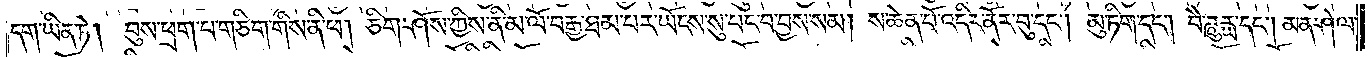དག་ཡིན་ཏེ། བུས་ཕྲག་པ་གཅིག་གིས་ནི་ཕ། ཅིག་ཤོས་ཀྱིས་ནི་མ་ལོ་བརྒྱ་ཐམ་པར་ཡོངས་སུ་པང་བ་བྱས་སམ། ས་ཆེན་པོ་འདིར་ནོར་བུ་དང༌། མུ་ཏིག་དང༌། བཻ་ཌཱུཪྻ་དང༌། མན་ཤེལ་
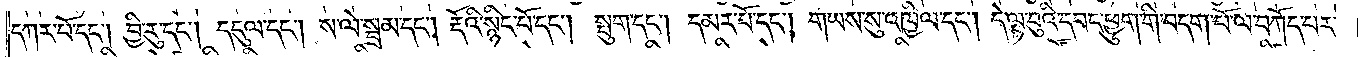དཀར་པོ་དང༌། བྱི་རུ་དང༌། དངུལ་དང༌། ས་ལེ་སྦྲམ་དང༌། རྡོའི་སྙིང་པོ་དང༌། སྤུག་དང༌། དམར་པོ་དང༌། གཡས་སུ་འཁྱིལ་དང༌། དེ་ལྟ་བུའི་དབང་ཕྱུག་གི་བདག་པོ་ལ་བཀོད་པར་
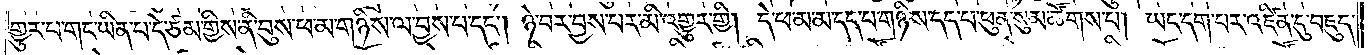གྱུར་པ་གང་ཡིན་པ་དེ་ཙམ་གྱིས་ནི་བུས་ཕ་མ་གཉིས་ལ་བྱས་པ་དང༌། ཉེ་བར་བྱས་པར་མི་འགྱུར་གྱི། དེ་ཕ་མ་མ་དད་པ་གཉིས་དད་པ་ཕུན་སུམ་ཚོགས་པ། ཡང་དག་པར་འཛིན་དུ་བཇུད་
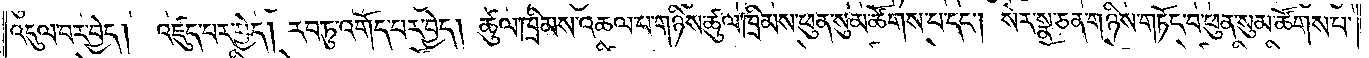འདུལ་བར་བྱེད། འཛུད་པར་བྱེད། རབ་ཏུ་འགོད་པར་བྱེད། ཚུལ་ཁྲིམས་འཆལ་པ་གཉིས་ཚུལ་ཁྲིམས་ཕུན་སུམ་ཚོགས་པ་དང༌། སེར་སྣ་ཅན་གཉིས་གཏོང་བ་ཕུན་སུམ་ཚོགས་པ་
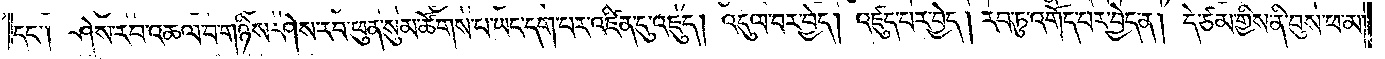དང༌། ཤེས་རབ་འཆལ་བ་གཉིས་ཤེས་རབ་ཕུན་སུམ་ཚོགས་པ་ཡང་དག་པར་འཛིན་དུ་འཇུད། འདུལ་བར་བྱེད། འཛུད་པར་བྱེད། རབ་ཏུ་འགོད་པར་བྱེད་ན། དེ་ཙམ་གྱིས་ནི་བུས་ཕ་མ་
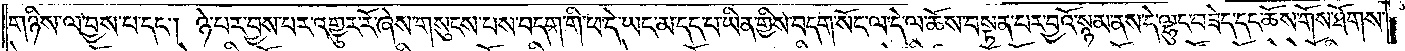གཉིས་ལ་བྱས་པ་དང༌། ཉེ་བར་བྱས་པར་འགྱུར་རོ་ཞེས་གསུངས་པས་བདག་གི་ཕ་དེ་ཡང་མ་དད་པ་ཡིན་གྱིས་བདག་སོང་ལ་དེ་ལ་ཆོས་བསྟན་པར་བྱའོ་སྙམ་ནས་དེ་ལྷུང་བཟེད་དང་ཆོས་གོས་ཐོགས་
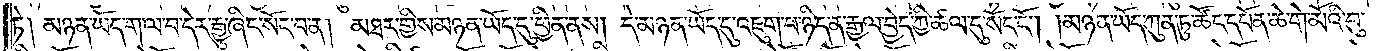ཏེ༑ མཉན་ཡོད་ག་ལ་བ་དེར་རྒྱུ་ཞིང་སོང་བ་ན། མཐར་གྱིས་མཉན་ཡོད་དུ་ཕྱིན་ནས། དེ་མཉན་ཡོད་དུ་འཇུག་པ་ཉིད་ན་རྒྱལ་བྱེད་ཀྱི་ཚལ་དུ་སོང་ངོ༌། །མཉན་ཡོད་ཀུན་ཏུ་ཚོང་དཔོན་ཆེ་གེ་མོའི་བུ་
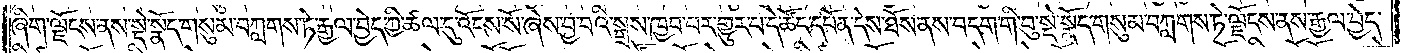ཞིག་ལྗོངས་ནས་སྡེ་སྣོད་གསུམ་བཀླགས་ཏེ་རྒྱལ་བྱེད་ཀྱི་ཚལ་དུ་འོངས་སོ་ཞེས་བྱ་བའི་སྒྲས་ཁྱབ་པར་གྱུར་པ་དེ་ཚོང་དཔོན་དེས་ཐོས་ནས་བདག་གི་བུ་སྡེ་སྣོད་གསུམ་བཀླགས་ཏེ་ལྗོངས་ནས་རྒྱལ་བྱེད་
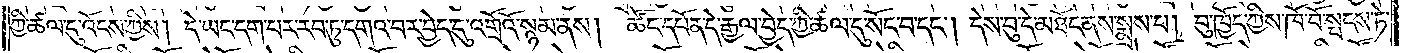ཀྱི་ཚལ་དུ་འོངས་ཀྱིས། དེ་ཡང་དག་པར་རབ་ཏུ་དགའ་བར་བྱེད་དུ་འགྲོའོ་སྙམ་ནས། ཚོང་དཔོན་དེ་རྒྱལ་བྱེད་ཀྱི་ཚལ་དུ་སོང་བ་དང༌། དེས་བུ་དེ་མཐོང་ནས་སྨྲས་པ། བུ་ཁྱོད་ཀྱིས་ཁོ་བོ་སྤངས་ཏེ་
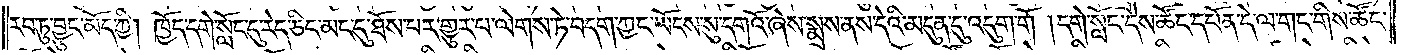རབ་ཏུ་བྱུང་མོད་ཀྱི། ཁྱོད་དགེ་སློང་དུ་རེད་ཅིང་མང་དུ་ཐོས་པར་གྱུར་པ་ལེགས་ཏེ་བདག་ཀྱང་ཡོངས་སུ་དགའོ་ཞེས་སྨྲས་ནས་དེའི་མདུན་དུ་འདུག་གོ །དགེ་སློང་དེས་ཚོང་དཔོན་དེ་ལ་གང་གིས་ཚོང་
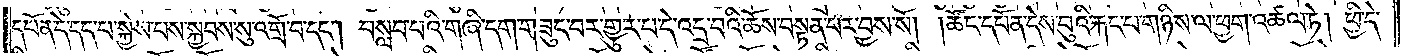དཔོན་དེ་དད་པ་སྐྱེས་པས་སྐྱབས་སུ་འགྲོ་བ་དང༌། བསླབ་པའི་གཞི་དག་གཟུང་བར་གྱུར་པ་དེ་འདྲ་བའི་ཆོས་བསྟན་པར་བྱས་སོ། །ཚོང་དཔོན་དེས་བུའི་རྐང་པ་གཉིས་ལ་ཕྱག་འཚལ་ཏེ། ཕྱི་དེ་
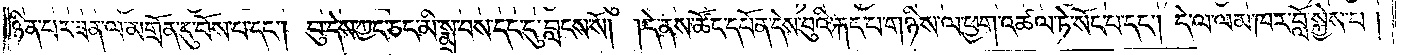ཉིན་པར་ཟན་ལ་མགྲོན་དུ་བོས་པ་དང༌། བུ་དེས་ཀྱང་ཅང་མི་སྨྲ་བས་དང་དུ་བླངས་སོ། །དེ་ནས་ཚོང་དཔོན་དེས་བུའི་རྐང་པ་གཉིས་ལ་ཕྱག་འཚལ་ཏེ་སོང་པ་དང༌། དེ་ལ་ལམ་ཁར་བློ་སྐྱེས་པ།
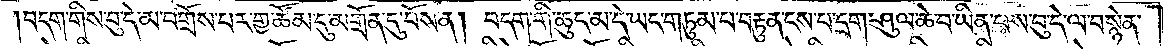བདག་གིས་བུ་དེ་མ་བགྲོས་པར་གྱ་ཚོམ་དུ་མགྲོན་དུ་བོས་ན། བདག་གི་ཆུང་མ་དེ་ཡང་གཏུམ་པ་བརྟུན་ངས་པ་དྲག་ཤུལ་ཆེ་བ་ཡིན་པས་བུ་དེ་ལ་བསྙེན་
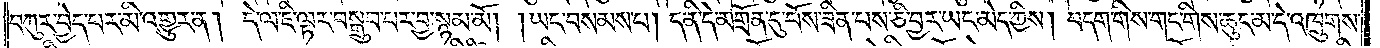བཀུར་བྱེད་པར་མི་འགྱུར་ན། དེ་ལ་ཇི་ལྟར་བསྒྲུབ་པར་བྱ་སྙམ་མོ། །ཡང་བསམས་པ། ད་ནི་དེ་མགྲོན་དུ་བོས་ཟིན་པས་ཅི་བྱར་ཡང་མེད་ཀྱིས། བདག་གིས་གང་གིས་ཆུང་མ་དེ་འཁྲུགས་
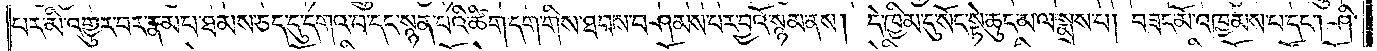པར་མི་འགྱུར་བར་རྣམ་པ་ཐམས་ཅད་དུ་དགའ་བ་དང་སྙན་པའི་ཚིག་དག་གིས་ཐབས་བཤམས་པར་བྱའོ་སྙམ་ནས། དེ་ཁྱིམ་དུ་སོང་སྟེ་ཆུང་མ་ལ་སྨྲས་པ། བཟང་མོ་འཁྱམས་པ་དང༌། ཤི་
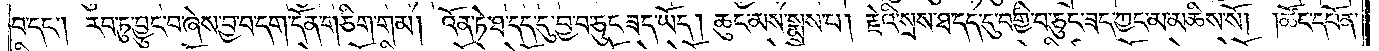བ་དང༌། རབ་ཏུ་བྱུང་བ་ཞེས་བྱ་བ་དག་དོན་གཅིག་གམ། འོན་ཏེ་ཐ་དད་དུ་བྱ་བ་ཅུང་ཟད་ཡོད། ཆུང་མས་སྨྲས་པ། རྗེའི་སྲས་ཐ་དད་དུ་བགྱི་བ་ཅུང་ཟད་ཀྱང་མ་མཆིས་སོ། །ཚོང་དཔོན་
